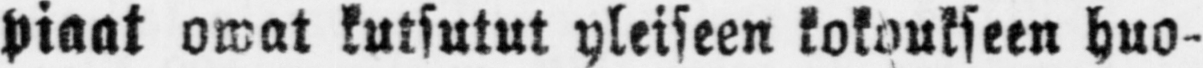piaat owat kutsutut yleiseen kokoukseen huo-
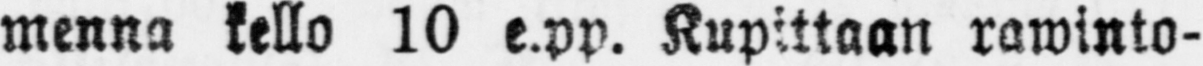menna kello 10 e.pp. Kupittaan rawinto-
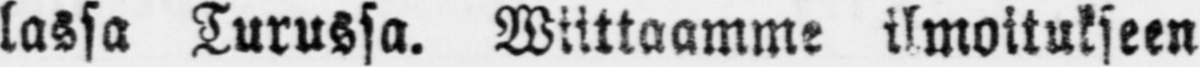lassa Turussa. Wiitaamme ilmoitukseen
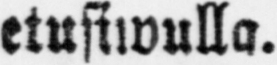etusivulla.
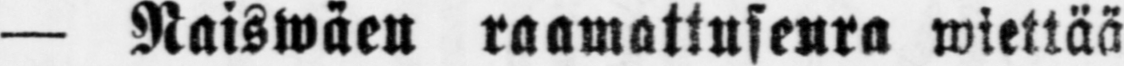— Naiswäen raamattuseura wiettää
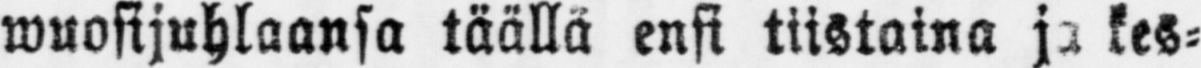wuosijuhlaansa täällä ensi tiistaina kes-
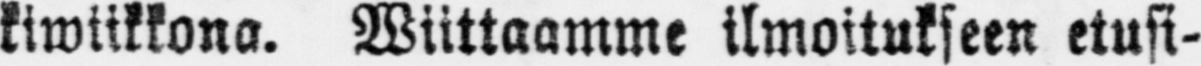kiwiikkona. Wiittaamme ilmoitukseen etusi-
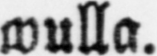wulla.
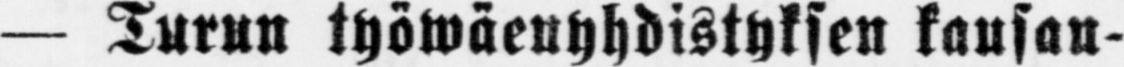— Turun työwäenyhdistyksen kansan-
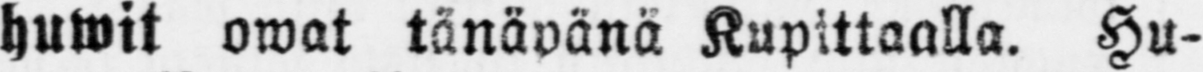huwit owat tänävänä Kupittaalla. Hu-
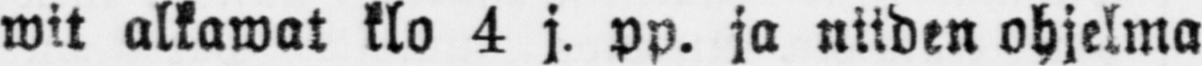wit alkawat klo 4 j. pp. ja niiden ohjelma
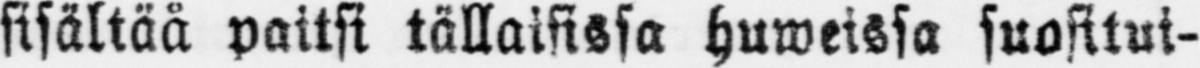sisältää paitsi tällaisissa huweissa suositut-
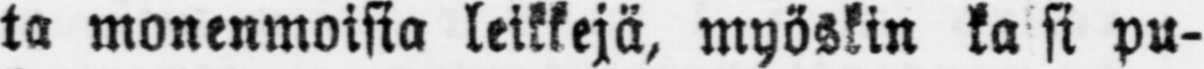ta monenmoisia leikkejä, myöskin kaksi pu-
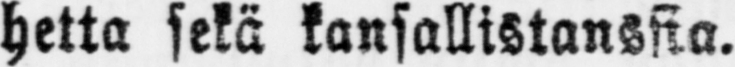hetta sekä kansallistanssia.
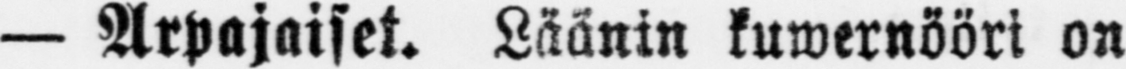— Arpajaiset. Läänin kuwernööri on
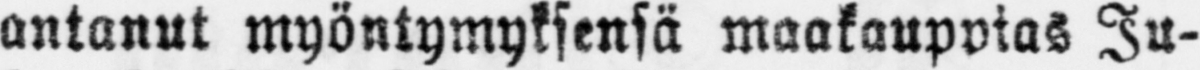antanut myöntymyksensä maakauppias Ju-
